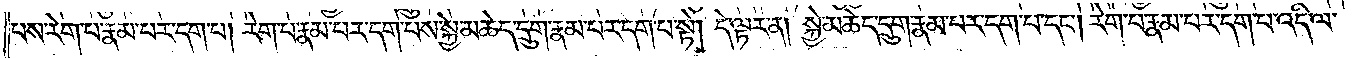པས་རེག་པ་རྣམ་པར་དག་པ། རེག་པ་རྣམ་པར་དག་པས་སྐྱེ་མཆེད་དྲུག་རྣམ་པར་དག་པ་སྟེ། དེ་ལྟར་ན། སྐྱེ་མཆེད་དྲུག་རྣམ་པར་དག་པ་དང༌། རེག་པ་རྣམ་པར་དག་པ་འདི་ལ་
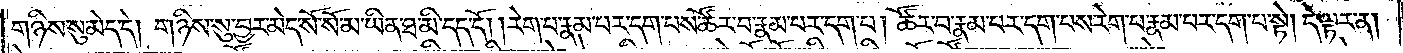གཉིས་སུ་མེད་དེ། གཉིས་སུ་བྱར་མེད་སོ་སོ་མ་ཡིན་ཐ་མི་དད་དོ། །རེག་པ་རྣམ་པར་དག་པས་ཚོར་བ་རྣམ་པར་དག་པ། ཚོར་བ་རྣམ་པར་དག་པས་རེག་པ་རྣམ་པར་དག་པ་སྟེ། དེ་ལྟར་ན།
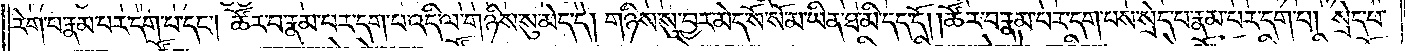རེག་པ་རྣམ་པར་དག་པ་དང༌། ཚོར་བ་རྣམ་པར་དག་པ་འདི་ལ་གཉིས་སུ་མེད་དེ། གཉིས་སུ་བྱར་མེད་སོ་སོ་མ་ཡིན་ཐ་མི་དད་དོ། །ཚོར་བ་རྣམ་པར་དག་པས་སྲེད་པ་རྣམ་པར་དག་པ། སྲེད་པ་
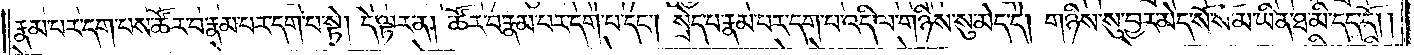རྣམ་པར་དག་པས་ཚོར་བ་རྣམ་པར་དག་པ་སྟེ། དེ་ལྟར་ན། ཚོར་བ་རྣམ་པར་དག་པ་དང༌། སྲེད་པ་རྣམ་པར་དག་པ་འདི་ལ་གཉིས་སུ་མེད་དེ། གཉིས་སུ་བྱར་མེད་སོ་སོ་མ་ཡིན་ཐ་མི་དད་དོ། །
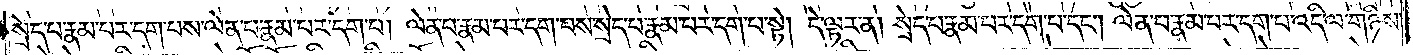སྲེད་པ་རྣམ་པར་དག་པས་ལེན་པ་རྣམ་པར་དག་པ། ལེན་པ་རྣམ་པར་དག་པས་སྲེད་པ་རྣམ་པར་དག་པ་སྟེ། དེ་ལྟར་ན། སྲེད་པ་རྣམ་པར་དག་པ་དང༌། ལེན་པ་རྣམ་པར་དག་པ་འདི་ལ་གཉིས་
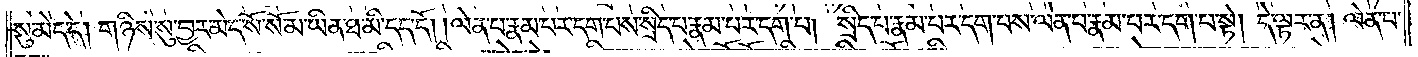སུ་མེད་དེ། གཉིས་སུ་བྱར་མེད་སོ་སོ་མ་ཡིན་ཐ་མི་དད་དོ། །ལེན་པ་རྣམ་པར་དག་པས་སྲིད་པ་རྣམ་པར་དག་པ། སྲིད་པ་རྣམ་པར་དག་པས་ལེན་པ་རྣམ་པར་དག་པ་སྟེ། དེ་ལྟར་ན། ལེན་པ་
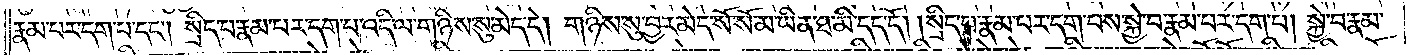རྣམ་པར་དག་པ་དང༌། སྲིད་པ་རྣམ་པར་དག་པ་འདི་ལ་གཉིས་སུ་མེད་དེ། གཉིས་སུ་བྱར་མེད་སོ་སོ་མ་ཡིན་ཐ་མི་དད་དོ། །སྲིད་པ་རྣམ་པར་དག་པས་སྐྱེ་བ་རྣམ་པར་དག་པ། སྐྱེ་བ་རྣམ་
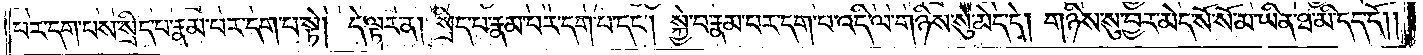པར་དག་པས་སྲིད་པ་རྣམ་པར་དག་པ་སྟེ། དེ་ལྟར་ན། སྲིད་པ་རྣམ་པར་དག་པ་དང༌། སྐྱེ་བ་རྣམ་པར་དག་པ་འདི་ལ་གཉིས་སུ་མེད་དེ། གཉིས་སུ་བྱར་མེད་སོ་སོ་མ་ཡིན་ཐ་མི་དད་དོ། །
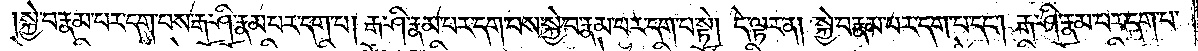སྐྱེ་བ་རྣམ་པར་དག་པས་རྒ་ཤི་རྣམ་པར་དག་པ། རྒ་ཤི་རྣམ་པར་དག་པས་སྐྱེ་བ་རྣམ་པར་དག་པ་སྟེ། དེ་ལྟར་ན། སྐྱེ་བ་རྣམ་པར་དག་པ་དང༌། རྒ་ཤི་རྣམ་པར་དག་པ་
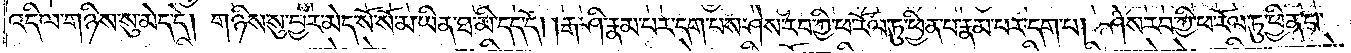འདི་ལ་གཉིས་སུ་མེད་དེ། གཉིས་སུ་བྱར་མེད་སོ་སོ་མ་ཡིན་ཐ་མི་དད་དོ། །རྒ་ཤི་རྣམ་པར་དག་པས་ཤེས་རབ་ཀྱི་ཕ་རོལ་ཏུ་ཕྱིན་པ་རྣམ་པར་དག་པ། ཤེས་རབ་ཀྱི་ཕ་རོལ་ཏུ་ཕྱིན་པ་
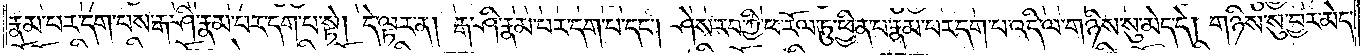རྣམ་པར་དག་པས་རྒ་ཤི་རྣམ་པར་དག་པ་སྟེ། དེ་ལྟར་ན། རྒ་ཤི་རྣམ་པར་དག་པ་དང༌། ཤེས་རབ་ཀྱི་ཕ་རོལ་ཏུ་ཕྱིན་པ་རྣམ་པར་དག་པ་འདི་ལ་གཉིས་སུ་མེད་དེ། གཉིས་སུ་བྱར་མེད་
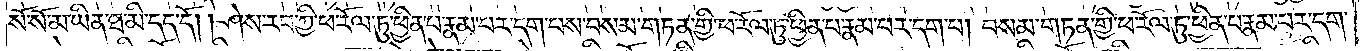སོ་སོ་མ་ཡིན་ཐ་མི་དད་དོ། །ཤེས་རབ་ཀྱི་ཕ་རོལ་ཏུ་ཕྱིན་པ་རྣམ་པར་དག་པས་བསམ་གཏན་གྱི་ཕ་རོལ་ཏུ་ཕྱིན་པ་རྣམ་པར་དག་པ། བསམ་གཏན་གྱི་ཕ་རོལ་ཏུ་ཕྱིན་པ་རྣམ་པར་དག་
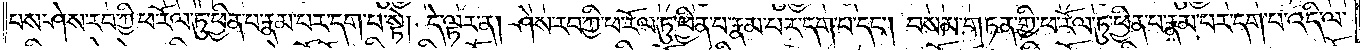པས་ཤེས་རབ་ཀྱི་ཕ་རོལ་ཏུ་ཕྱིན་པ་རྣམ་པར་དག་པ་སྟེ། དེ་ལྟར་ན། ཤེས་རབ་ཀྱི་ཕ་རོལ་ཏུ་ཕྱིན་པ་རྣམ་པར་དག་པ་དང༌། བསམ་གཏན་གྱི་ཕ་རོལ་ཏུ་ཕྱིན་པ་རྣམ་པར་དག་པ་འདི་ལ་
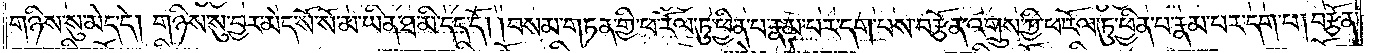གཉིས་སུ་མེད་དེ། གཉིས་སུ་བྱར་མེད་སོ་སོ་མ་ཡིན་ཐ་མི་དད་དོ། །བསམ་གཏན་གྱི་ཕ་རོལ་ཏུ་ཕྱིན་པ་རྣམ་པར་དག་པས་བརྩོན་འགྲུས་ཀྱི་ཕ་རོལ་ཏུ་ཕྱིན་པ་རྣམ་པར་དག་པ། བརྩོན་
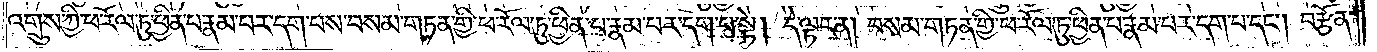འགྲུས་ཀྱི་ཕ་རོལ་ཏུ་ཕྱིན་པ་རྣམ་པར་དག་པས་བསམ་གཏན་གྱི་ཕ་རོལ་ཏུ་ཕྱིན་པ་རྣམ་པར་དག་པ་སྟེ། དེ་ལྟར་ན། བསམ་གཏན་གྱི་ཕ་རོལ་ཏུ་ཕྱིན་པ་རྣམ་པར་དག་པ་དང༌། བརྩོན་
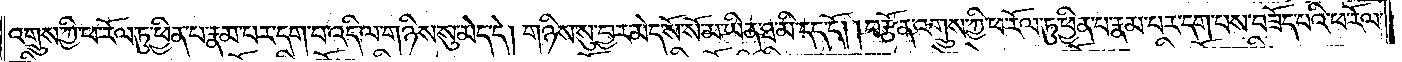འགྲུས་ཀྱི་ཕ་རོལ་ཏུ་ཕྱིན་པ་རྣམ་པར་དག་པ་འདི་ལ་གཉིས་སུ་མེད་དེ། གཉིས་སུ་བྱར་མེད་སོ་སོ་མ་ཡིན་ཐ་མི་དད་དོ། །བརྩོན་འགྲུས་ཀྱི་ཕ་རོལ་ཏུ་ཕྱིན་པ་རྣམ་པར་དག་པས་བཟོད་པའི་ཕ་རོལ་
